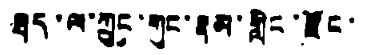ཐད་ལ་ཀྲུང་གུང་རྣམ་གླིང་རྫོང་
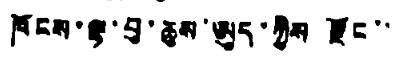ཁོངས་ལྷ་བུ་ཆུས་ཨུད་ཀྱིས རྫོང་་
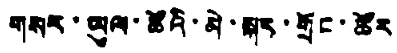གསར་ཡུལ་ཚོའི་མེ་སྐར་གྲོང་ཚོར
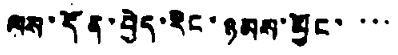ལས་དོན་བྱེད་རིང་ཉམས་མྱོང་་་་
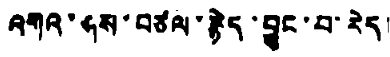འགའ་ཤས་བཙལ་རྙེད་བྱུང་བ་རེད།
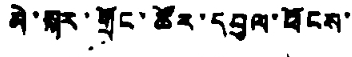མེ་སྐར་གྲོང་ཚོར་དབུལ་ཕོངས་
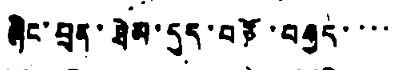ཞིང་བྲན་ཐེམ་དུད་བཙོ་བརྒྱད་་་་
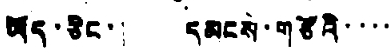ཡོད་ཅིང་། དམངས་གཙོའི་་་་
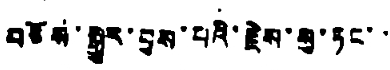བཅོས་སྒྱུར་བྱས་པའི་རྗེས་སུ་ཏང་་
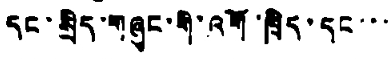དང་སྲིད་གཞུང་གི་འགོ་ཁྲིད་དང་་་
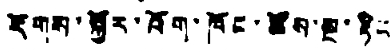རོགས་སྐྱོར་འོག་ཁོང་ཚོས་སྔ་རྟིང
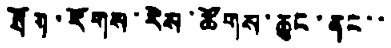ཐོག་རོགས་རེས་ཚོགས་ཆུང་ནང་་
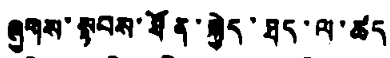ཞུགས་སྟབས་ཐོན་སྐྱེད་ཐད་ལ་ཚད
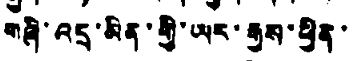གཞི་འདྲ་མིན་གྱི་ཡར་རྒྱས་ཕྱིན་
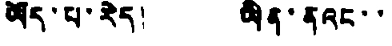ཡོད་པ་རེད། ཡིན་ནའང་་
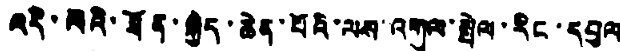འདི་ལེའི་ཐོན་སྐྱེད་ཆེན་པོའི་ལས་འགུལ་སྤེལ་རིང་དབུལ
